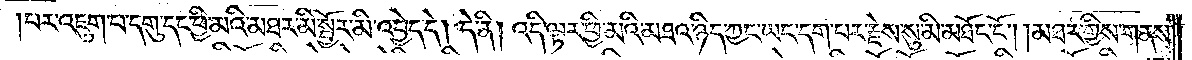པར་འཇུག་པ་དགུ་དང་ཕྱི་མའི་མཐར་མི་སྦྱོར་མི་འབྱེད་དེ། དེ་ནི། འདི་ལྟར་ཕྱི་མའི་མཐའ་ཉིད་ཀྱང་ཡང་དག་པར་རྗེས་སུ་མི་མཐོང་ངོ༌། །མཐར་གྱིས་གནས་
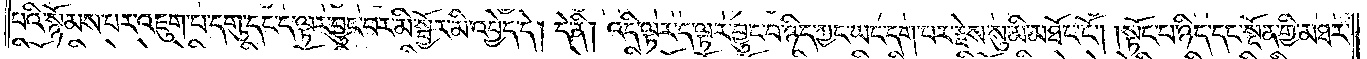པའི་སྙོམས་པར་འཇུག་པ་དགུ་དང་ད་ལྟར་བྱུང་བར་མི་སྦྱོར་མི་འབྱེད་དེ། དེ་ནི། འདི་ལྟར་ད་ལྟར་བྱུང་བ་ཉིད་ཀྱང་ཡང་དག་པར་རྗེས་སུ་མི་མཐོང་ངོ༌། །སྟོང་པ་ཉིད་དང་སྔོན་གྱི་མཐར་
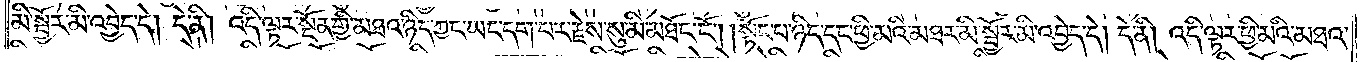མི་སྦྱོར་མི་འབྱེད་དེ། དེ་ནི། འདི་ལྟར་སྔོན་གྱི་མཐའ་ཉིད་ཀྱང་ཡང་དག་པར་རྗེས་སུ་མི་མཐོང་ངོ༌། །སྟོང་པ་ཉིད་དང་ཕྱི་མའི་མཐར་མི་སྦྱོར་མི་འབྱེད་དེ། དེ་ནི། འདི་ལྟར་ཕྱི་མའི་མཐའ་
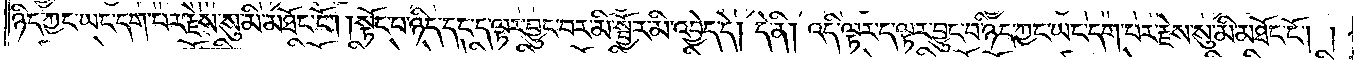ཉིད་ཀྱང་ཡང་དག་པར་རྗེས་སུ་མི་མཐོང་ངོ༌། །སྟོང་པ་ཉིད་དང་ད་ལྟར་བྱུང་བར་མི་སྦྱོར་མི་འབྱེད་དེ། དེ་ནི། འདི་ལྟར་ད་ལྟར་བྱུང་བ་ཉིད་ཀྱང་ཡང་དག་པར་རྗེས་སུ་མི་མཐོང་ངོ༌། །
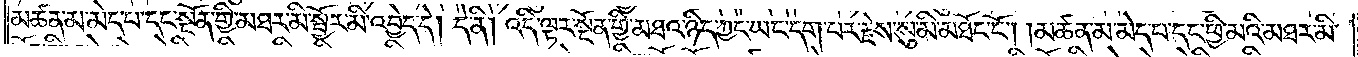མཚན་མ་མེད་པ་དང་སྔོན་གྱི་མཐར་མི་སྦྱོར་མི་འབྱེད་དེ། དེ་ནི། འདི་ལྟར་སྔོན་གྱི་མཐའ་ཉིད་ཀྱང་ཡང་དག་པར་རྗེས་སུ་མི་མཐོང་ངོ༌། །མཚན་མ་མེད་པ་དང་ཕྱི་མའི་མཐར་མི་
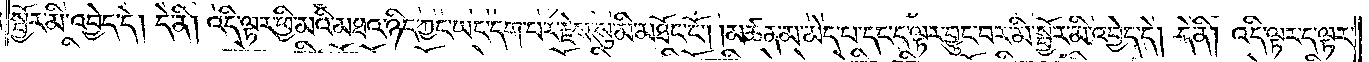སྦྱོར་མི་འབྱེད་དེ། དེ་ནི། འདི་ལྟར་ཕྱི་མའི་མཐའ་ཉིད་ཀྱང་ཡང་དག་པར་རྗེས་སུ་མི་མཐོང་ངོ༌། །མཚན་མ་མེད་པ་དང་ད་ལྟར་བྱུང་བར་མི་སྦྱོར་མི་འབྱེད་དེ། དེ་ནི། འདི་ལྟར་ད་ལྟར་
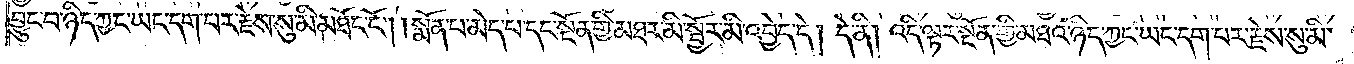བྱུང་བ་ཉིད་ཀྱང་ཡང་དག་པར་རྗེས་སུ་མི་མཐོང་ངོ༌། །སྨོན་པ་མེད་པ་དང་སྔོན་གྱི་མཐར་མི་སྦྱོར་མི་འབྱེད་དེ། དེ་ནི། འདི་ལྟར་སྔོན་གྱི་མཐའ་ཉིད་ཀྱང་ཡང་དག་པར་རྗེས་སུ་མི་
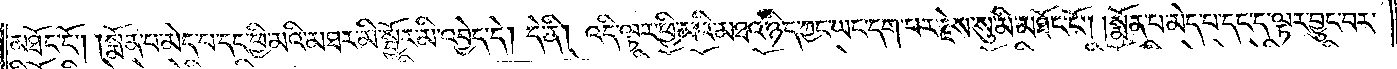མཐོང་ངོ༌། །སྨོན་པ་མེད་པ་དང་ཕྱི་མའི་མཐར་མི་སྦྱོར་མི་འབྱེད་དེ། དེ་ནི། འདི་ལྟར་ཕྱི་མའི་མཐའ་ཉིད་ཀྱང་ཡང་དག་པར་རྗེས་སུ་མི་མཐོང་ངོ༌། །སྨོན་པ་མེད་པ་དང་ད་ལྟར་བྱུང་བར་
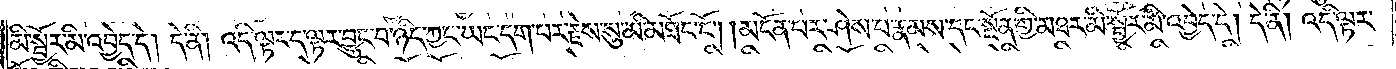མི་སྦྱོར་མི་འབྱེད་དེ། དེ་ནི། འདི་ལྟར་ད་ལྟར་བྱུང་བ་ཉིད་ཀྱང་ཡང་དག་པར་རྗེས་སུ་མི་མཐོང་ངོ༌། །མངོན་པར་ཤེས་པ་རྣམས་དང་སྔོན་གྱི་མཐར་མི་སྦྱོར་མི་འབྱེད་དེ། དེ་ནི། འདི་ལྟར་
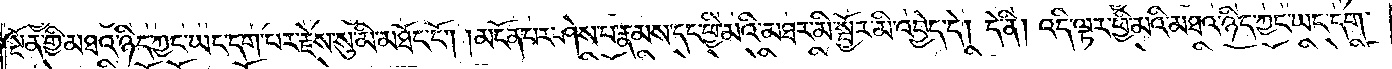སྔོན་གྱི་མཐའ་ཉིད་ཀྱང་ཡང་དག་པར་རྗེས་སུ་མི་མཐོང་ངོ༌། །མངོན་པར་ཤེས་པ་རྣམས་དང་ཕྱི་མའི་མཐར་མི་སྦྱོར་མི་འབྱེད་དེ། དེ་ནི། འདི་ལྟར་ཕྱི་མའི་མཐའ་ཉིད་ཀྱང་ཡང་དག་
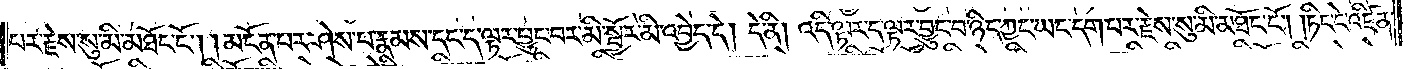པར་རྗེས་སུ་མི་མཐོང་ངོ༌། །མངོན་པར་ཤེས་པ་རྣམས་དང་ད་ལྟར་བྱུང་བར་མི་སྦྱོར་མི་འབྱེད་དེ། དེ་ནི། འདི་ལྟར་ད་ལྟར་བྱུང་བ་ཉིད་ཀྱང་ཡང་དག་པར་རྗེས་སུ་མི་མཐོང་ངོ༌། །ཏིང་ངེ་འཛིན་
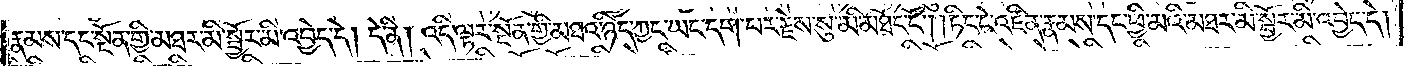རྣམས་དང་སྔོན་གྱི་མཐར་མི་སྦྱོར་མི་འབྱེད་དེ། དེ་ནི། འདི་ལྟར་སྔོན་གྱི་མཐའ་ཉིད་ཀྱང་ཡང་དག་པར་རྗེས་སུ་མི་མཐོང་ངོ༌། །ཏིང་ངེ་འཛིན་རྣམས་དང་ཕྱི་མའི་མཐར་མི་སྦྱོར་མི་འབྱེད་དེ།
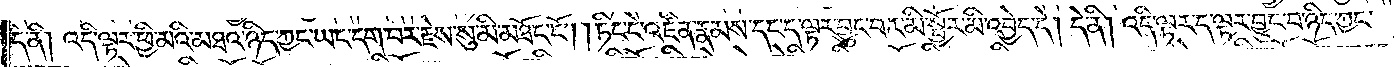དེ་ནི། འདི་ལྟར་ཕྱི་མའི་མཐའ་ཉིད་ཀྱང་ཡང་དག་པར་རྗེས་སུ་མི་མཐོང་ངོ༌། །ཏིང་ངེ་འཛིན་རྣམས་དང་ད་ལྟར་བྱུང་བར་མི་སྦྱོར་མི་འབྱེད་དེ། དེ་ནི། འདི་ལྟར་ད་ལྟར་བྱུང་བ་ཉིད་ཀྱང་
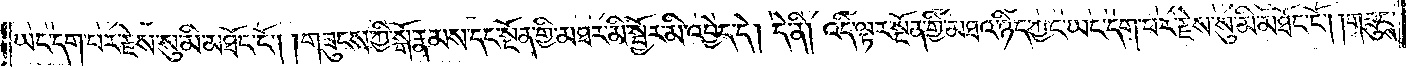ཡང་དག་པར་རྗེས་སུ་མི་མཐོང་ངོ༌། །གཟུངས་ཀྱི་སྒོ་རྣམས་དང་སྔོན་གྱི་མཐར་མི་སྦྱོར་མི་འབྱེད་དེ། དེ་ནི། འདི་ལྟར་སྔོན་གྱི་མཐའ་ཉིད་ཀྱང་ཡང་དག་པར་རྗེས་སུ་མི་མཐོང་ངོ༌། །གཟུངས་
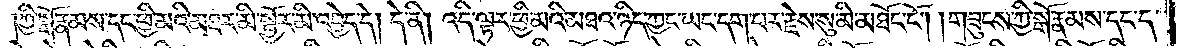ཀྱི་སྒོ་རྣམས་དང་ཕྱི་མའི་མཐར་མི་སྦྱོར་མི་འབྱེད་དེ། དེ་ནི། འདི་ལྟར་ཕྱི་མའི་མཐའ་ཉིད་ཀྱང་ཡང་དག་པར་རྗེས་སུ་མི་མཐོང་ངོ༌། །གཟུངས་ཀྱི་སྒོ་རྣམས་དང་ད་
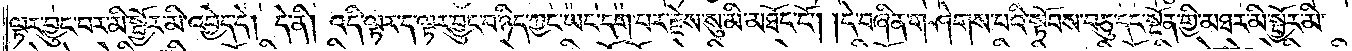ལྟར་བྱུང་བར་མི་སྦྱོར་མི་འབྱེད་དེ། དེ་ནི། འདི་ལྟར་ད་ལྟར་བྱུང་བ་ཉིད་ཀྱང་ཡང་དག་པར་རྗེས་སུ་མི་མཐོང་ངོ༌། །དེ་བཞིན་གཤེགས་པའི་སྟོབས་བཅུ་དང་སྔོན་གྱི་མཐར་མི་སྦྱོར་མི་
